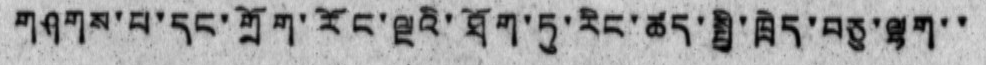གཤགས་པ་དང་གྲོག་རོང་ལྔའི་ཐོག་ཏུ་རིང་ཚད་སྤྱི་ཁྲེད་བཅུ་ལྷག་་
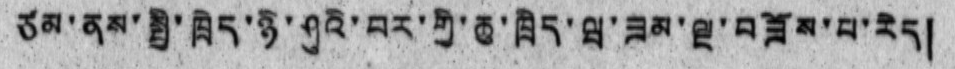ཙམ་ནས་སྤྱི་ཁྲེད་ཉི་ཤུའི་བར་གྱི་ཆུ་ཁྲེད་ཝ་ཟམ་ལྔ་བཟོས་པ་རེད།
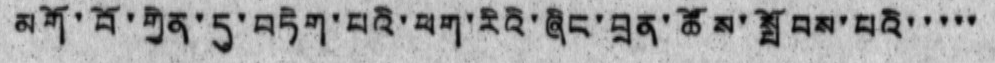མགོ་བོ་གྱེན་དུ་བཏེག་པའི་ཕག་རིའི་ཞིང་བྲན་ཚོས་སྤོབས་པའི་་་་་
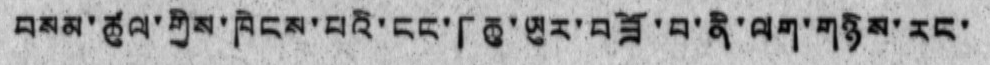བསམ་ཚུལ་གྱིས་ཁེངས་པའི་ངང་「ཆུ་ཡུར་བཟོ་བ་ནི་ལག་གཉིས་རང་
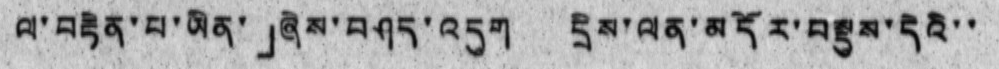ལ་བརྟེན་པ་ཡིན་」ཞེས་བཤད་འདུག དྲིས་ལན་མདོར་བསྡུས་དེའི་་
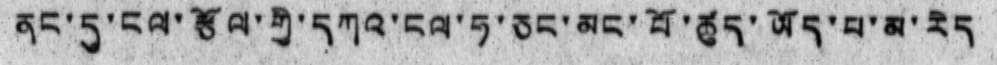ནང་དུ་ངལ་རྩོལ་གྱི་དཀའ་ངལ་ཧ་ཅང་མང་པོ་ཚུད་ཡོད་པ་མ་རེད
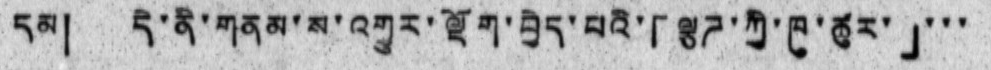དམ། དེ་ནི་གནམ་ས་འགྱུར་ལྡོག་བྱེད་པའི་「ལྕཌ་ཀྱི་ཁུ་ཚུར་」་་་
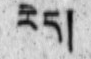རེད།
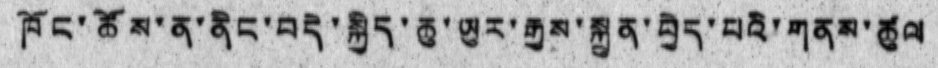ཁོང་ཚོས་ན་ནིང་བདེ་སྐྱིད་ཆུ་ཡུར་རྒྱས་སྐྲུན་བྱེད་པའི་གནས་ཚུལ
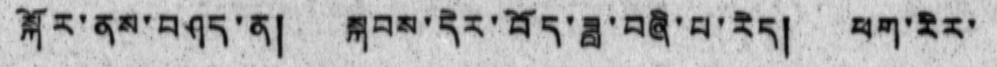སྐོར་ནས་བཤད་ན། སྐབས་དེར་བོད་ཟླ་བཞི་པ་རེད། ཕག་རིར་
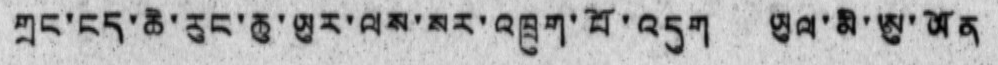གྲང་ངད་ཆེ་རུང་ཆུ་ཡུར་ལས་སར་འཁྲུག་པོ་འདུག ཡུལ་མི་ཨུ་ཡོན
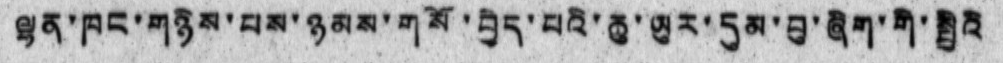ལྷན་ཁང་གཉིས་པས་ཉམས་གསོ་བྱེད་པའི་ཆུ་ཡུར་དུམ་བུ་ཞིག་གི་སྤྱིའི
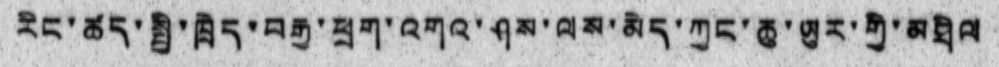རིང་ཚད་སྤྱི་ཁྲེད་བརྒྱ་ཕྲག་འགའ་ཤས་ལས་མེད་ཀྱང་ཆུ་ཡུར་གྱི་མཐིལ
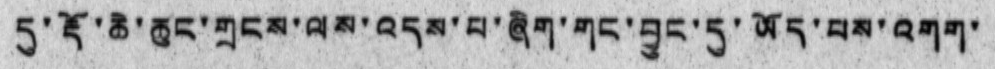དུ་རྡོ་ཆེ་ཆུང་གྲངས་ལས་འདས་པ་ཞིག་གང་བྱུང་དུ་ཡོད་པས་འགག་
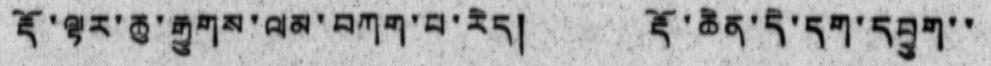རྡོ་ལྟར་ཆུ་རྒྱུགས་ལམ་བཀག་པ་རེད། རྡོ་ཆེན་དེ་དག་དབྱུག་་
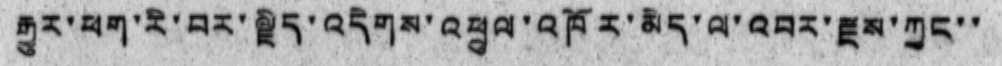རྒྱུར་ཕག་རི་བར་ལྗིད་འདེགས་འཕྲུལ་འཁོར་མེད་ལ་འབར་རྫས་ཀྱང་་
